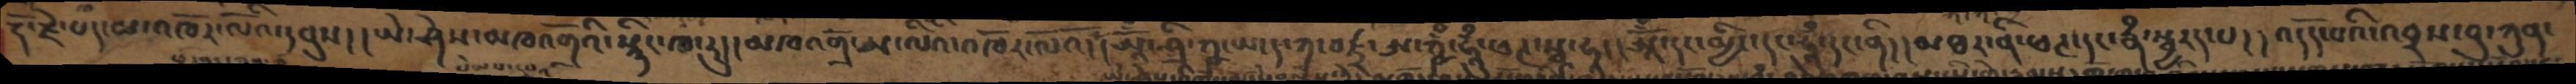རྡོ་རྗེ་པད་མ་འཁོར་ལོའི་དབུས། །ཡེ་ཤེས་མཁའགྲོའི་སྙིང་ཁ་རུ།། མཁའགྲོ་ཨ་ལིའི་འཁོར་ལོའོ།། ཨཱོྃ་ཤྲི་ཀྵ་ཡ་ད་ཀ་བཛྲ་ཨ་ཀྵྃ་ཧཱུྃ་ཕཊ་སྭཱ་ཧཱ།། ཨཱོྃ་དང་མྱིང་དང་ཧཱུྃ་དང་ནི།། མཐར་ནི་ཕཊ་དང་རྣྃ་སྦྱརད་པ།། འདོད་པའི་འབྲས་བུ་ཀུན་
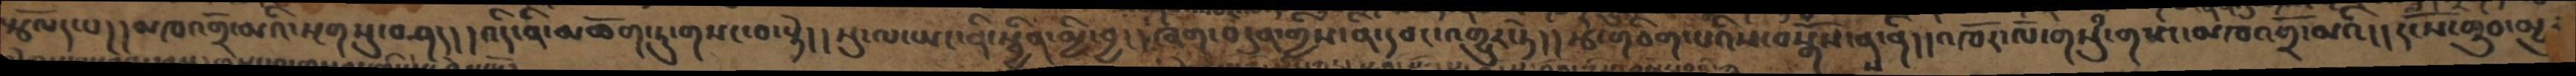སྩོལད་པ།། མཁའགྲོ་མའི་སྔགསུ་བཤད།། འདི་ནི་མཆོག་ཏུ་གསང་བ་སྟེ།། སུ་ལ་ཡང་ནི་སྦྱིན་མྱི་བྱ།། ཞག་བདུན་གྱིས་ནི་དབང་འགྱུར་ཏེ།། རྩེ་གཅིག་པའིས་བསྒོཾས་ནས་ནི།། འཁོར་ལོ་གསུྃ་གས་མཁའགྲོ་མའི།། དངོས་གྲུབ་མྱུར
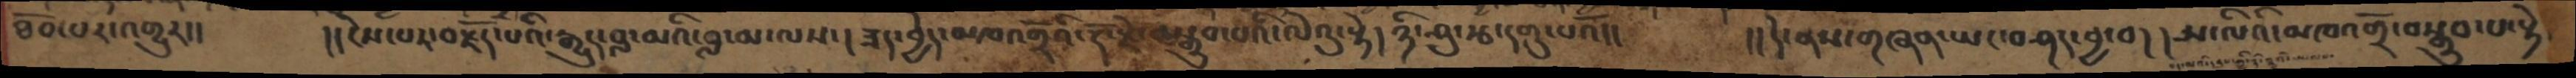ཐོབ་པར་འགྱུར།།  །།ངེས་པར་བརྗོད་པའི་རྒྱུད་བླ་མའི་བླ་མ་ལས།ཟད་བྱེད་མཁའགྲོའི་རྡོ་རྗེ་བསྒྲུབ་པའི་ལེའུ་སྟེ།ཉི་ཤུ་རྩ་དགུ་པའོ།།   །།དེ་ནས་གཞན་ཡང་བཤད་བྱ་བ།།ཨ་ལིའི་མཁའགྲོ་བསྒྲུབ་པ་སྟེ
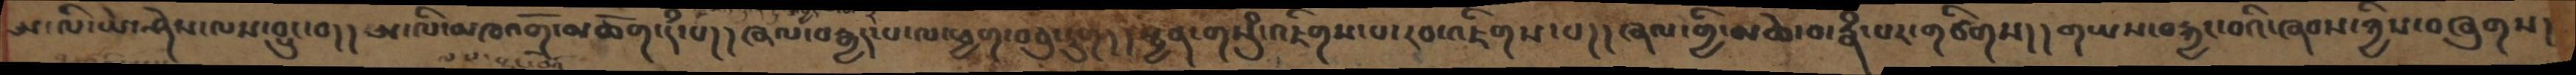ཨ་ལི་ཡེ་ཤེས་ལས་བྱུང་བ།།ཨ་ལི་མཁའགྲོ་མཆོག་དཾ་པ།།ཞལ་བརྒྱད་པ་ལ་ཕྱག་བཅུ་དྲུག།།སྤྱན་གསུམ་འཇིགས་པ་རབ་འཇིགས་པ།།ཞལ་གྱི་མཆེ་བ་རྣཾ་པར་གཙིགས།།གཡས་བརྐྱང་བའི་ཞབས་ཀྱིས་བཞུགས།
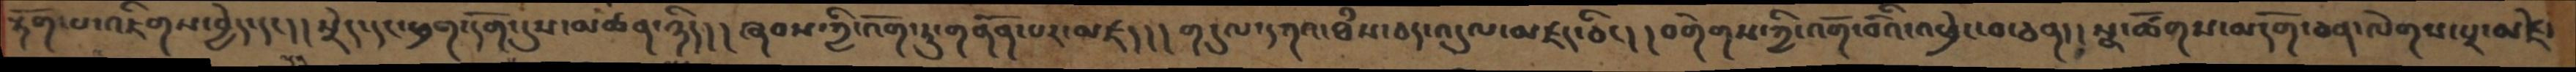རྟོག་པ་འཇིགས་བྱེད་དང།།སྲེད་དང་ཕྲག་དོག་དུས་མཚན་ཉིད།།ཞབས་ཀྱི་འོག་ཏུ་གནོན་པར་མཛད།།གདུལ་དཀའ་ཐཾས་ཅད་འདུལ་མཛད་ཅིང།།བགེགས་ཀྱི་འགོ་བོའི་འཕྲེང་བ་ཅན།།སྣ་ཚོགས་མདོག་ཅན་ལེགས་པར་མཛེས
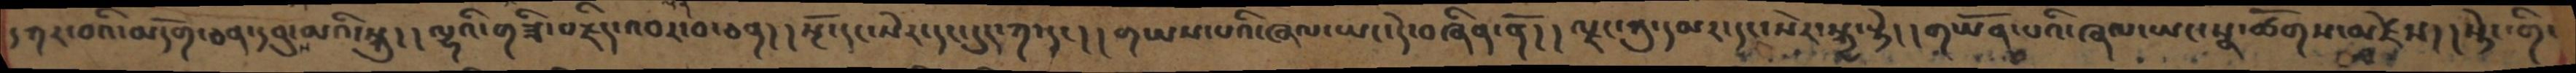དཀར་བའི་མདོག་ཅན་དབུས་མའི་སྐུ། །ལྷའི་གཟི་བརྗིད་འབར་བ་ཅན། །སྔོ་དང་སེར་དང་དུད་ཀ་དང། །གཡས་པའི་ཞལ་ཡང་དེ་བཞིན་ནོ། །ལྗང་ཀུ་དམར་དང་སེར་སྐྱ་སྟེ། །གཡོན་པའི་ཞལ་ཡང་སྣ་ཚོགས་མཛེས། །སྟེང་གི་
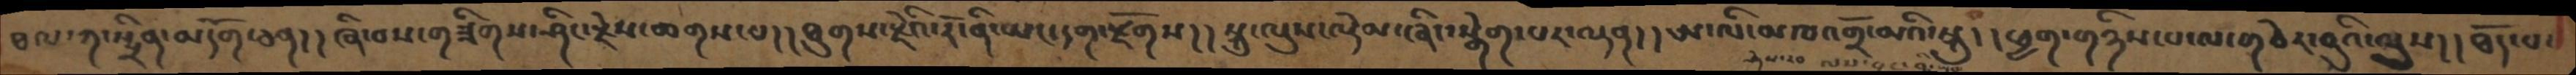ཐལ་ཀ་སྤྲིན་མདོག་ཅན། །ཞི་བས་གཟིགས་ཤིང་རྗེས་ཆགས་པ། །ཐུགས་རྗེའི་རོ་ནི་ཡང་དག་རྫོགས། །སྐུ་ལུས་ལྡེམ་ཞིང་སྒེག་པར་ལྡན། །ཨ་ལི་མཁའགྲོ་མའི་སྐུ། །ཕྱག་གཉིས་པ་ལ་གཅེར་བུའི་ལུས། །ཐོད་པ་
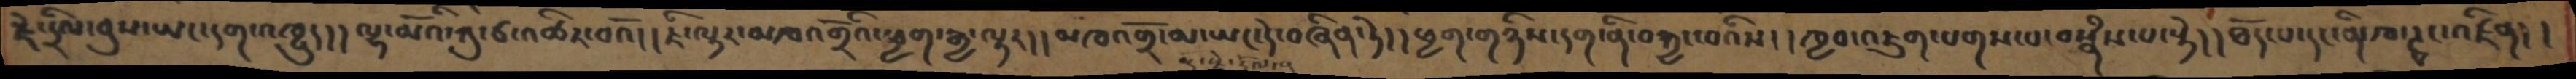རྗེ་དྲིལ་བུས་ཡང་དག་འཁྱུད།། ལྷ་མོའི་ཀུ་ཙ་འཚིར་བའོ། ། ཇི་ལྟར་མཁའགྲོའི་ཕྱག་རྒྱ་ལྟར།། མཁའགྲོ་མ་ཡང་དེ་བཞིན་ཏེ།། ཕྱག་གཉིས་དག་ནི་བརྐྱང་བའིས།། ཁྱབ་འཇུག་པགས་པ་བསྣཾས་པ་སྟེ།། ཐོད་པ་དང་ནི་ཁ་ཊྭང་འཛིན།།
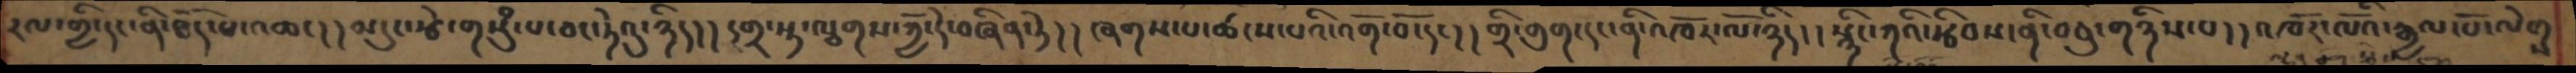རལ་གྱི་དང་ནི་ཐོད་པ་འཆང་།།མདུང་རྩེ་གསུཾ་པ་ཅང་ཏེའུ་ཉིད།། དགྲ་སྟ་ལྕགས་ཀྱོ་དེ་བཞིན་ཏེ།། ཞགས་པ་ཚངས་པའི་འགོ་བོ་དང་།། གྲི་གུག་དང་ནི་འཁོར་ལོ་ཉིད།། སྙིང་ཀའི་རྩིབས་ནི་བཅུ་གཉིས་པ།།  འཁོར་ལོའི་རྒྱལ་པོ་ལེགས
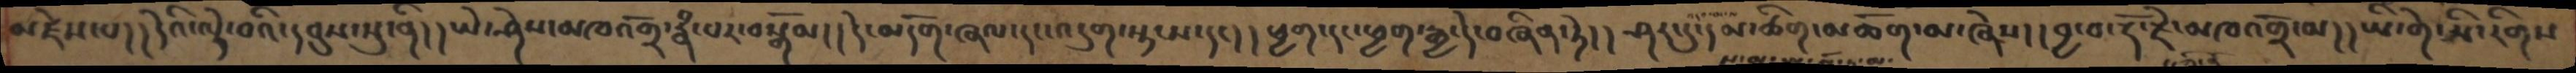མཛེས་པ།། དེའི་ལྟེ་བའི་དབུས་སུ་ནི།།ཡེ་ཤེས་མཁའགྲོ་རྣཾ་པར་བསྒོམ།། དེ་མདོག་ཞལ་དང་འདུག་སྟངས་དང།། ཕྱག་དང་ཕྱག་རྒྱ་དེ་བཞིན་ཏེ།། ཤར་དུ་དམ་ཚིག་མཆོག་མ་ཞེས།། བྱ་བ་རྡོ་རྗེ་མཁའགྲོ་མ།། ཡི་གེ་ཨི་རིགས་
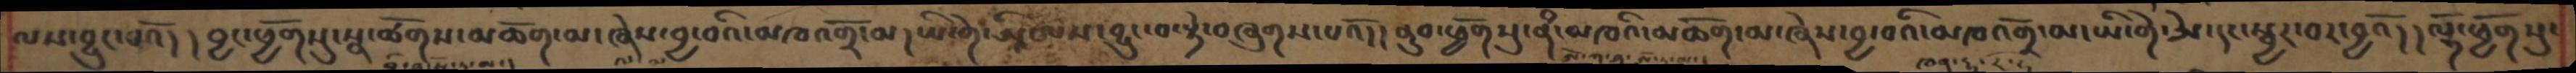ལས་བྱུང་པའོ། །བྱང་ཕྱོགསུ་སྣ་ཚོགས་མཆོག་མ་ཞེས་བྱ་བའི་མཁའགྲོ་མ། ཡི་གེ་ཨཱི་ལས་བྱུང་བ་སྟེ་བཞུགས་པའོ།། ནུབ་ཕྱོགསུ་ནཾ་མཁའི་མཆོག་མ་ཞེས་བྱ་བའི་མཁའགྲོ་མ་ཡི་གེ་ཨེ་དང་སྦྱར་བར་བྱའོ།། ལྷོ་ཕྱོགསུ་
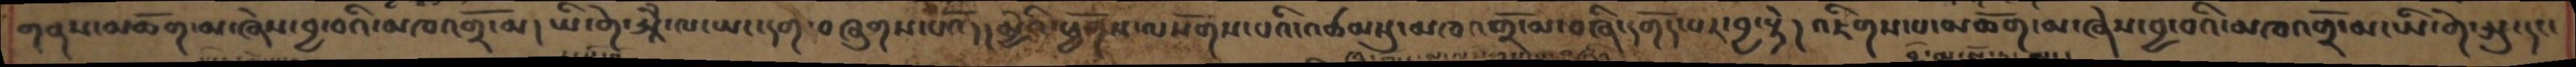གནས་མཆོག་མ་ཞེས་བྱ་བའི་མཁའགྲོ་མ། ཡི་གེ་ཨཱོྃ་ལ་ཡང་དག་བཞུགས་པའོ།། མྱེའི་ཕྱོགས་ལསོགས་པའི་འཚམསུ་མཁའགྲོ་མ་བཞི་དགོད་པར་བྱ་སྟེ། འཇིགས་པ་མཆོག་མ་ཞེས་བྱ་བའི་མཁའགྲོ་མ་ཡི་གེ་ཨུ་དང་
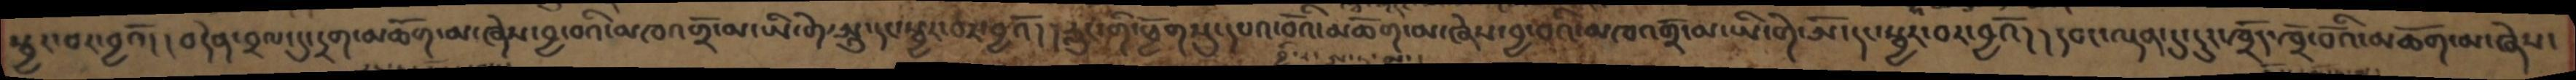སྦྱར་བར་བྱའོ།  །བདེན་བྲལ་དུ་དྲག་མཆོག་མ་ཞེས་བྱ་བའི་མཁའགྲོ་མ་ཡི་གེ་ཨཱུ་དང་སྦྱར་བར་བྱའོ། །རླུང་གི་ཕྱོགསུ་དཔའ་བོའི་མཆོག་མ་ཞེས་བྱ་བའི་མཁའགྲོ་མ་ཡི་གེ་ཨོ་དང་སྦྱར་བར་བྱའོ། །དབང་ལྡན་དུ་དུར་ཁྲོད་ཁྲོ་བོའི་མཆོག་མ་ཞེས་
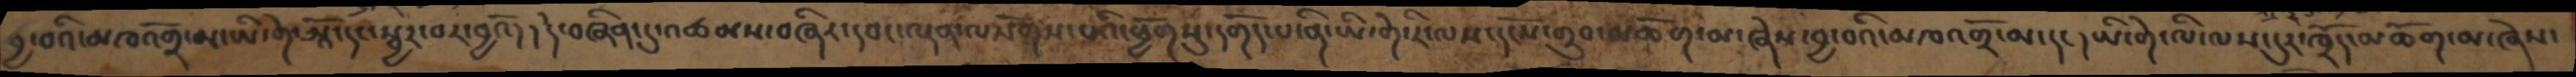བྱ་བའི་མཁའགྲོ་མ་ཡི་གེ་ཨཱོ་དང་སྦྱར་བར་བྱའོ།། དེ་བཞིན་དུ་འཚམས་བཞིར་དབང་ལྡན་ལསགོས་པའི་ཕྱོགསུ་དགོད་པ་ནི་ཡི་གེ་རི་ལས་དངོས་གྲུབ་མཆོག་མ་ཞེས་བྱ་བའི་མཁའགྲོ་མ་དང །ཡི་གེ་ལི་ལས་དུར་ཁྲོད་མཆོག་མ་ཞེས་
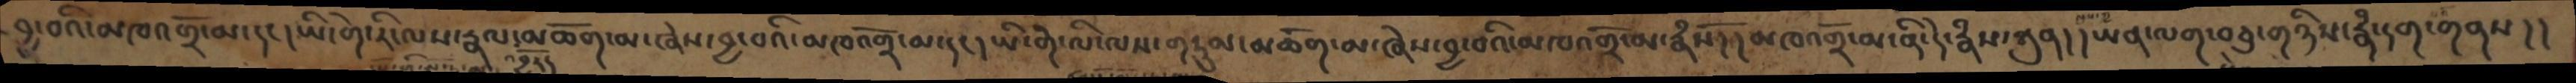བྱ་བའི་མཁའགྲོ་མ་དང། ཡི་གེ་རི་ལས་རྣལ་འབྱོརད་མཆོག་མ་ཞེས་བྱ་བའི་མཁའགྲོ་མ་དང། ཡི་གེ་ལི་ལས་གཏུམ་མཆོག་མ་ཞེས་བྱ་བའི་མཁའགྲོ་མ་རྣཾས། །མཁའགྲོ་མ་ནི་དེ་རྣཾས་ཀུན།། ཡན་ལག་བཅུ་གཉིས་རྣཾ་དག་གནས།།
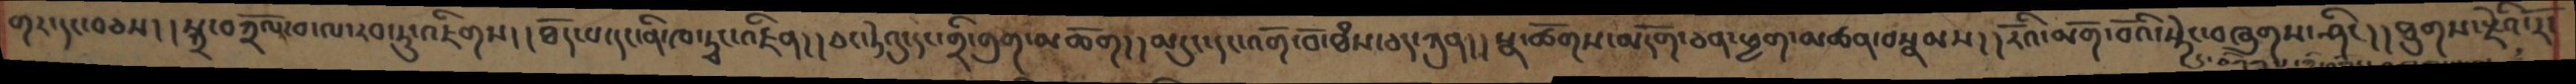གར་དང་བཅས། །སྐྲ་བཀྲོལ་བ་ལས་རབ་ཏུ་འཇིགས། །ཐོད་པ་དང་ནི་ཁ་ཏྭང་འཛིན། །ཅང་ཏེའུ་དང་གྲི་གུག་མཆོག། །མདུང་དང་འགོ་བོ་ཐཾས་ཅད་ཀུན།། སྣ་ཚོགས་མདོག་ཅན་ཕྱག་མཚན་བསྣམས།། རོའི་མགོ་བོའི་སྟེང་བཞུགས་ཤིང།། ཐུགས་རྗེའི་རོ་
